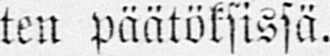ten päätöksissä.
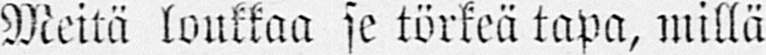Meitä loukkaa se törkeä tapa, millä
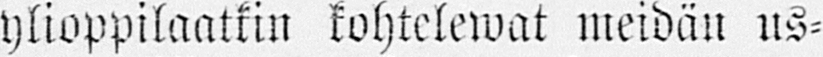ylioppilaatkin kohtelewat meidän us-
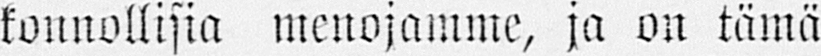konnollisia menojamme, ja on tämä
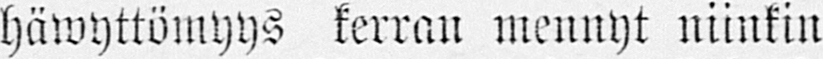häwyttömyys kerran mennyt niinkin
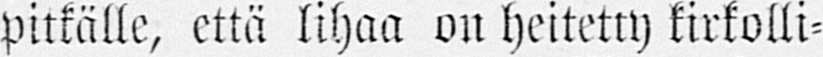pitkälle, että lihaa on heitetty kirkolli-
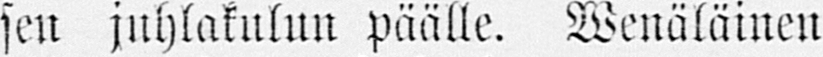sen juhlakulun päälle. Wenäläinen
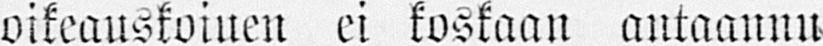oikeauskoiuen ei koskaan antaannu
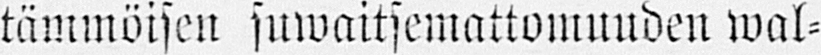tämmöisen suwaitsemattomuuden wal-
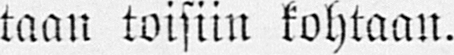taan toisiin kohtaan.
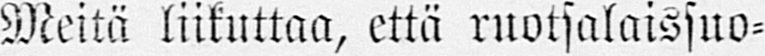Meitä liikuttaa, että ruotsalaissuo-
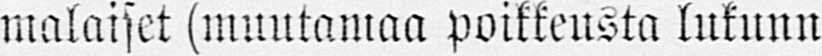malaiset (muutamaa poikkeusta lukunn
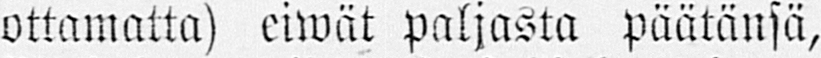ottamatta) eiwät paljasta päätänsä,
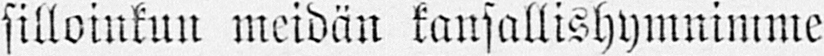silloinkun meidän kansallishymnimme
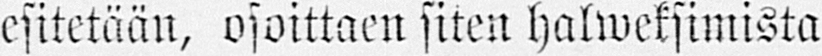esitetään, osoittaen siten halweksimista
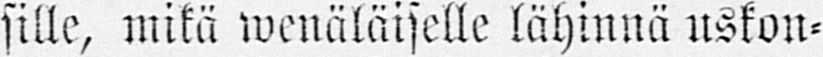sille, mikä wenäläiselle lähinnä uskon-
